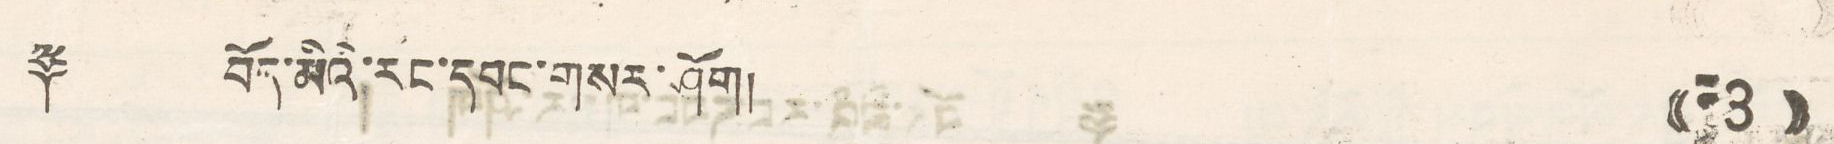༈ བོད་མིའི་རང་དབང་གསར་ཤོག།། (( 3 ))
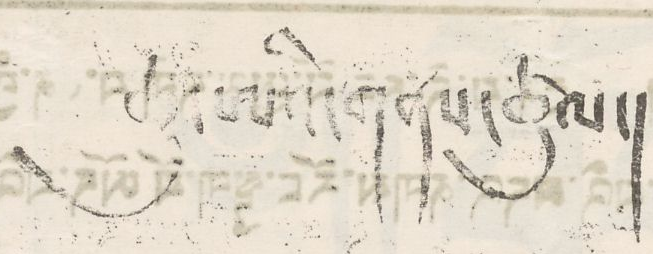ཆུ་ཨའི་གནས་ཚུལ།
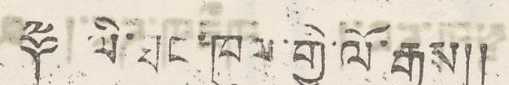༈ ལི་ཐང་ཁུལ་གྱི་ལོ་རྒྱུས།།
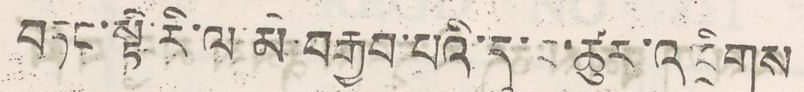བཏང་སྟེ་རི་ལ་མེ་བརྒྱབ་པའི་དུ་བ་ཚུར་འཁྲིགས
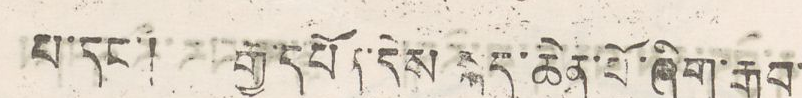པ་དང་། རྒྱ་དཔོན་དེས་སྐད་ཆེན་པོ་ཞིག་རྒྱབ་
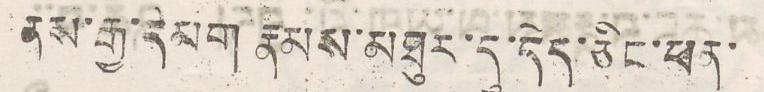ནས་རྒྱ་དམག་རྣམས་མཐུར་དུ་དེད་ཅིང་ཕན་
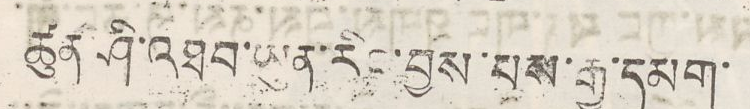ཚུན་ཤི་འཐབ་ཡུན་རིང་བྱས་པས་རྒྱ་དམག་
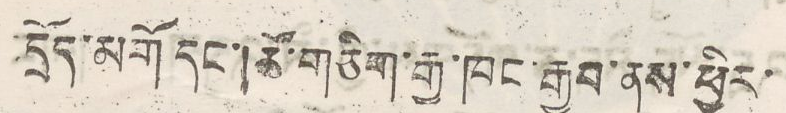དྲོད་མགོ དང་།ཚོ་གཅིག་རྒྱ་ཁང་རྒྱབ་ནས་ཕྱིར་
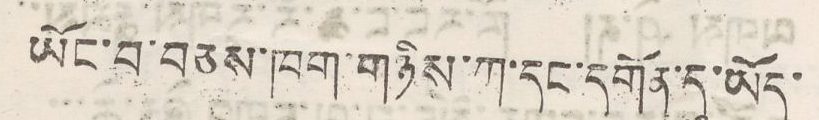ཡོང་བ་བཅས་ཁག་གཉིས་ཀ་དང་དགོན་དུ་ཡོད་
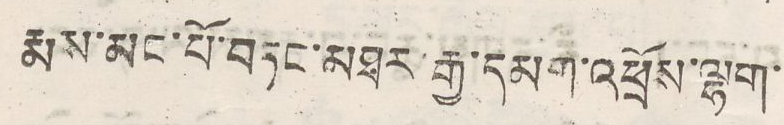རྨས་མང་པོ་བཏང་མཐར་རྒྱ་དམག་འཕྲོས་ལྷག་
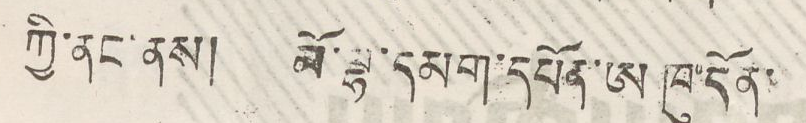ཀྱི་ནང་ནས། མོ་ལྷ་དམག་དཔོན་ཨ ཁུ་དོན་
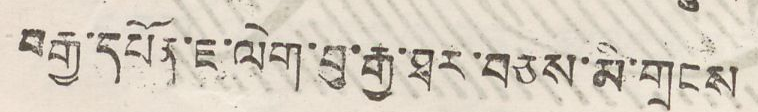བརྒྱ་དཔོན་ཇ་ལེག་བུ་རྒྱ་ཐར་བཅས་མི་གྲངས
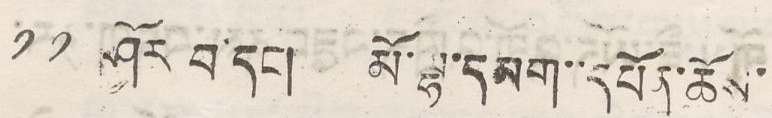༡༡ ཤོར བ་དང་། མོ་ལྷ་དམག་་དཔོན་ཆོས་
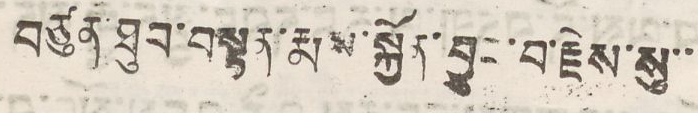བཙུན་ཐུབ་བསྟན་རྨས་སྐྱོན་བྱུང་བ་རྗེས་སུ་་
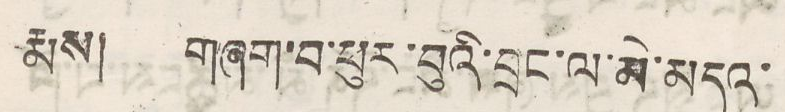རྨས། གཞག་བ་ཕུར་བུའི་བྲང་ལ་མེ་མདའ་
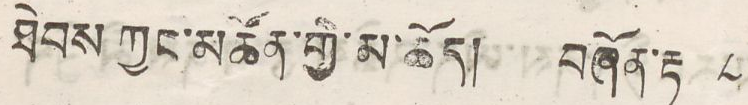ཐེབས་ཀྱང་མཚོན་གྱི་མ་ཆོད། བཞོན་རྟ ༨
